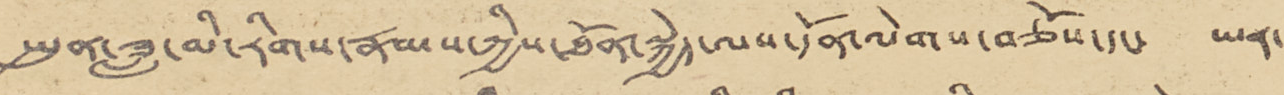སྤུན་ཟླ་མི་རིགས་རྣམས་ཀྱིས་ཐོན་སྐྱེད་ལས་དོན་ལེགས་བཅོས་དང་ ཡན་
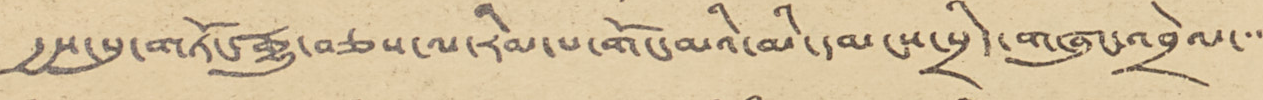རྒྱས་སུ་གཏོང་རྒྱུ་བཅས་ལ་རིམ་པ་གོང་མའི་མི་དམངས་སྲིད་གཞུང་འབྲེལ་་་་
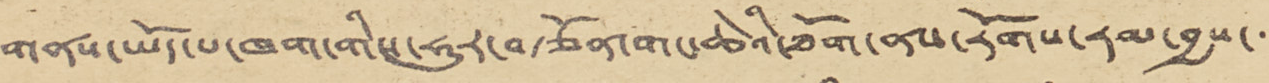གནས་ཡོད་པ་ཁག་གིས་ཧུར་བརྩོན་གང་ཆེའི་ཐོག་ནས་རོགས་རམ་བྱས་་་
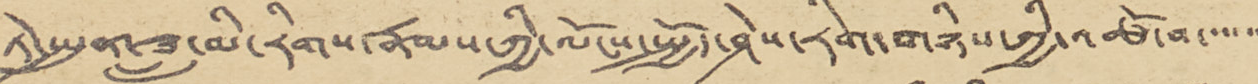ཏེ་སྤུན་ཟླ་མི་རིགས་རྣམས་ཀྱི་ལོངས་སྤྱོད་ཤེས་རིག་གཉིས་ཀྱི་འཚོ་བ་་་་་་
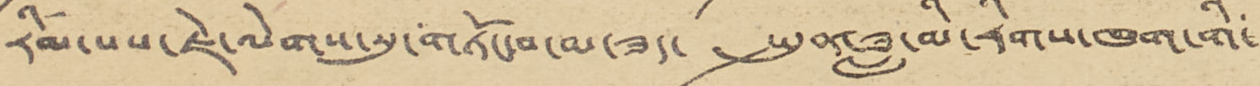རིམ་པས་ཇེ་ལེགས་སུ་གཏོང་བ་མ་ཟད་ སྤུན་ཟླ་མི་རིགས་ཁག་གི་
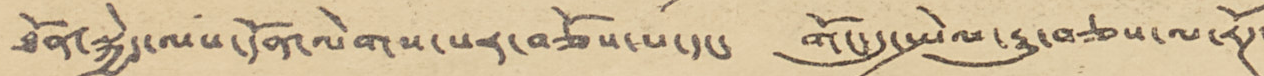ཐོན་སྐྱེད་ལས་དོན་ལེགས་པར་བཅོས་པ་དང་ གོང་དུ་སྤེལ་རྒྱུ་བཅས་ལ་རོཊ་
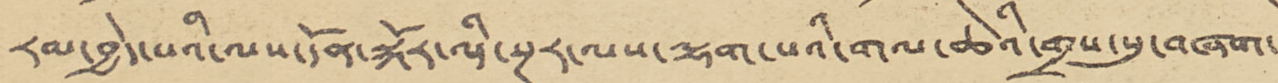རམ་བྱེད་པའི་ལས་དོན་སྐོར་འདི་སྔར་ལས་ལྷག་པའི་གལ་ཆེའི་གྲས་སུ་བཞག་
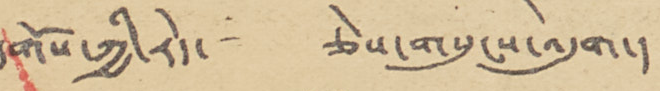དགོས་ཀྱི་རེད་ ཅེས་གསུངས་འདུག་།
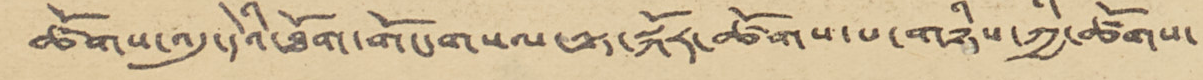ཚོགས་འདུ་དེའི་ཐོག་གོང་གསལ་ལྟ་སྐོར་ཚོགས་པ་གཉིས་ཀྱི་ཚོགས་
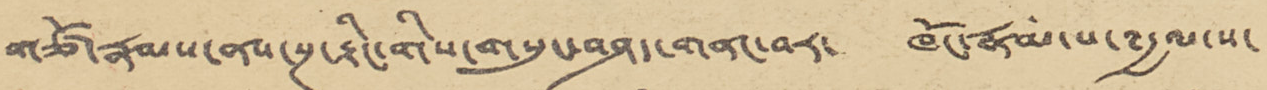གཙོ་རྣམས་ནས་སྔ་རྟིང་གིས་གསུང་བཤད་གནང་བར་ ཁོང་རྣམ་པ་༸རྒྱལ་ས་
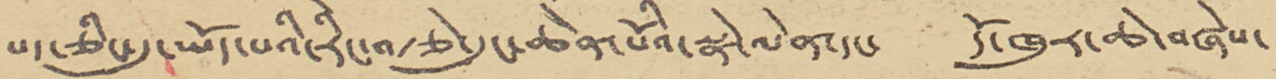པད་ཅིང་དུ་ཡོད་པའི་རིང་བརྩེ་དུང་ཆེན་པོའི་སྣེ་ལེན་དང་ དོ་ཁུར་ཆེ་བཞེས་
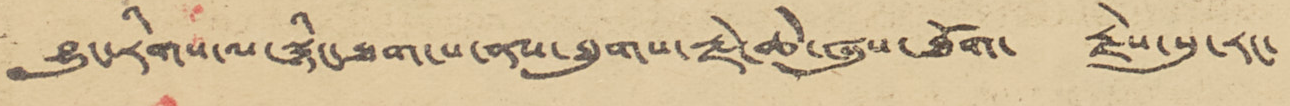བྱུང་རིགས་ལ་སྙིང་ཐག་པ་ནས་ཐུགས་རྗེ་ཆེ་ཞུས་ཐོག་ རྗེས་སུ་རང་
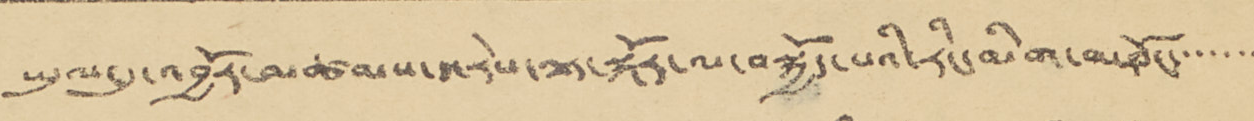ཡུལ་དུ་འབྱོར་མཚམས་ད་རེས་ལྟ་སྐོར་ལ་བསྐྱོད་པའི་རིང་མིག་མཐོང་་་་་་
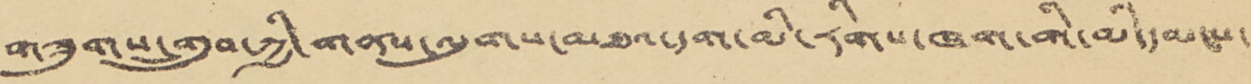གཟུགས་གྲུབ་ཀྱི་གནས་ལུགས་མཐའ་དག་མི་རིགས་ཁག་གི་མི་དམངས་
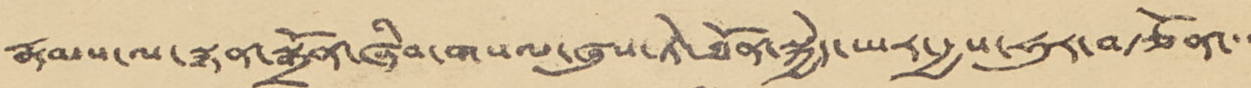རྣམས་ལ་སྙན་སྒྲོན་ཞིབ་གསལ་ཞུས་ཏེ་ཐོན་སྐྱེད་ཡར་རྒྱས་ཧུར་བརྩོན་་་
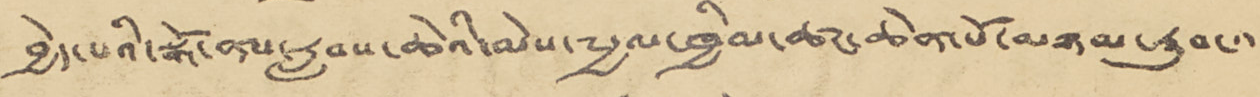བྱེད་པའི་སྒོ་ནས་རླབས་ཆེའི་མེས་༸རྒྱལ་ཁྱིམ་ཚང་ཆེན་པོ་མཉམ་རུབ་་་
